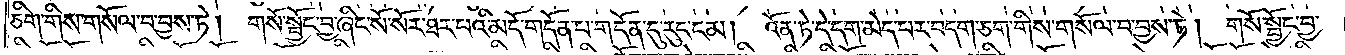ཅིག་གིས་གསོལ་བ་བྱས་ཏེ། གསོ་སྦྱོང་བྱ་ཞིང་སོ་སོར་ཐར་པའི་མདོ་གདོན་པ་གདོན་དུ་རུང་ངམ། འོན་ཏེ་དེ་དག་མེད་པར་བདག་ཅག་གིས་གསོལ་བ་བྱས་ཏེ། གསོ་སྦྱོང་བྱ་
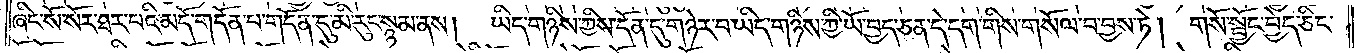ཞིང་སོ་སོར་ཐར་པའི་མདོ་གདོན་པ་གདོན་དུ་མི་རུང་སྙམ་ནས། ཡིད་གཉིས་ཀྱིས་དོན་དུ་གཉེར་བ་ཡིད་གཉིས་ཀྱི་ཡོ་བྱད་ཅན་དེ་དག་གིས་གསོལ་བ་བྱས་ཏེ། གསོ་སྦྱོང་བྱེད་ཅིང་
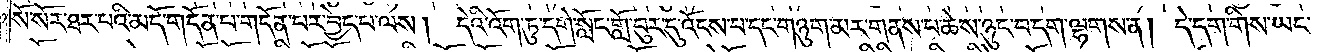སོ་སོར་ཐར་པའི་མདོ་གདོན་པ་གདོན་པར་བྱེད་པ་ལས། དེའི་འོག་ཏུ་དགེ་སློང་གློ་བུར་དུ་འོངས་པ་དང་གཉུག་མར་གནས་བ་ཆེས་ཉུང་བདག་ལྷགས་ན། དེ་དག་གིས་ཡང་
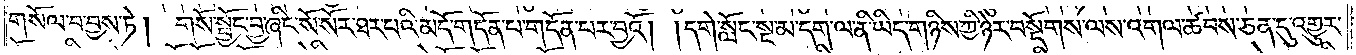གསོལ་བ་བྱས་ཏེ། གསོ་སྦྱོང་བྱ་ཞིང་སོ་སོར་ཐར་པའི་མདོ་གདོན་པ་གདོན་པར་བྱའོ། །དགེ་སློང་སྔ་མ་དག་ལ་ནི་ཡིད་གཉིས་ཀྱི་ཉེར་བསྡོགས་ལས་འགལ་ཚབས་ཅན་དུ་འགྱུར་
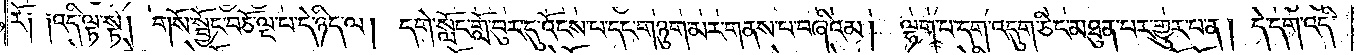རོ ༑ ༑འདི་ལྟ་སྟེ། གསོ་སྦྱོང་བཅོ་ལྔ་པ་དེ་ཉིད་ལ། དགེ་སློང་གློ་བུར་དུ་འོངས་པ་དང་གཉུག་མར་གནས་པ་བཞིའམ། ལྷག་པ་དག་འདུག་ཅིང་མཐུན་པར་གྱུར་པ་ན། དེ་དག་འདི་
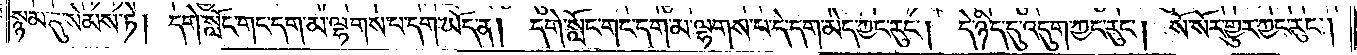སྙམ་དུ་སེམས་ཏེ། དགེ་སློང་གང་དག་མ་ལྷགས་པ་དག་མོད་ན། དགེ་སློང་གང་དག་མ་ལྷགས་པ་དེ་དག་མེད་ཀྱང་རུང༌། དེ་ཉིད་དུ་འདུག་ཀྱང་རུང༌། སོ་སོར་གྱུར་ཀྱང་རུང༌།
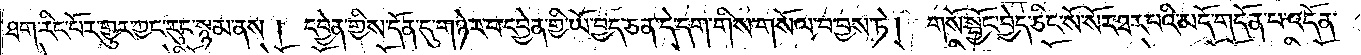ཐག་རིང་པོར་གྱུར་ཀྱང་རུང་སྙམ་ནས། དབྱེན་གྱིས་དོན་དུ་གཉེར་བ་དབྱེན་གྱི་ཡོ་བྱད་ཅན་དེ་དག་གིས་གསོལ་བ་བྱས་ཏེ། གསོ་སྦྱོང་བྱེད་ཅིང་སོ་སོར་ཐར་པའི་མདོ་གདོན་པ་འདོན་
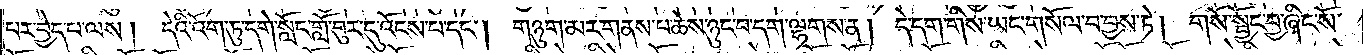པར་བྱེད་པ་ལས། དེའི་འོག་ཏུ་དགེ་སློང་གློ་བུར་དུ་འོངས་པ་དང༌། གཉུག་མར་གནས་པ་ཆེས་ཉུང་བ་དག་ལྷགས་ན། དེ་དག་གིས་ཡང་གསོལ་བ་བྱས་ཏེ། གསོ་སྦྱོང་བྱ་ཞིང་སོ་
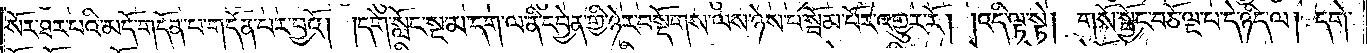སོར་ཐར་པའི་མདོ་གདོན་པ་གདོན་པར་བྱའོ། །དགེ་སློང་སྔ་མ་དག་ལ་ནི་དབྱེན་གྱི་ཉེར་བསྡོགས་ཡས་ཉེས་པ་སྤོམ་པོར་འགྱུར་རོ། །འདི་ལྟ་སྟེ། གསོ་སྦྱོང་བཅོ་ལྔ་པ་དེ་ཉིད་ལ། དགེ་
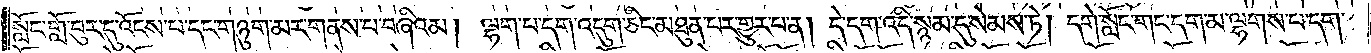སློང་གློ་བུར་དུ་འོངས་པ་དང་གཉུག་མར་གནས་པ་བཞིའམ། ལྷག་པ་དག་འདུག་ཅིང་མཐུན་པར་གྱུར་པ་ན། དེ་དག་འདི་སྙམ་དུ་སེམས་ཏེ། དགེ་སློང་གང་དག་མ་ལྷགས་པ་དག་
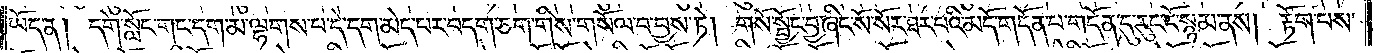ཡོད་ན། དགེ་སློང་གང་དག་མ་ལྷགས་པ་དེ་དག་མེད་པར་བདག་ཅག་གིས་གསོལ་བ་བྱས་ཏེ། གསོ་སྦྱོང་བྱ་ཞིང་སོ་སོར་ཐར་པའི་མདོ་གདོན་པ་གདོན་དུ་རུང་ངོ་སྙམ་ནས། རྟོག་པས་
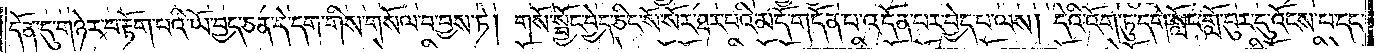དོན་དུ་གཉེར་བ་རྟོག་པའི་ཡོ་བྱད་ཅན་དེ་དག་གིས་གསོལ་བ་བྱས་ཏེ། གསོ་སྦྱོང་བྱེད་ཅིང་སོ་སོར་ཐར་པའི་མདོ་གདོན་པ་འདོན་པར་བྱེད་པ་ལས། དེའི་འོག་ཏུ་དགེ་སློང་གློ་བུར་དུ་འོངས་པ་དང་
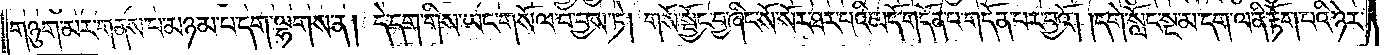གཉུག་མར་གནས་པ་མཉམ་པ་དག་ལྷགས་ན། དེ་དག་གིས་ཡང་གསོལ་བ་བྱས་ཏེ། གསོ་སྦྱོང་བྱ་ཞིང་སོ་སོར་ཐར་པའི་མདོ་གདོན་པ་གདོན་པར་བྱའོ། །དགེ་སློང་སྔ་མ་དག་ལ་ནི་རྟོག་བའི་ཉེར་
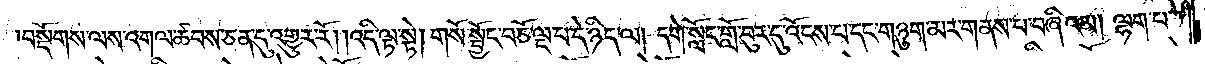བསྡོགས་ལས་འགལ་ཚབས་ཅན་དུ་འགྱུར་རོ། །འདི་ལྟ་སྟེ། གསོ་སྦྱོང་བཅོ་ལྔ་པ་དེ་ཉིད་ལ། དགེ་སློང་གློ་བུར་དུ་འོངས་པ་དང་གཉུག་མར་གནས་པ་བཞིའམ། ལྷག་པ་
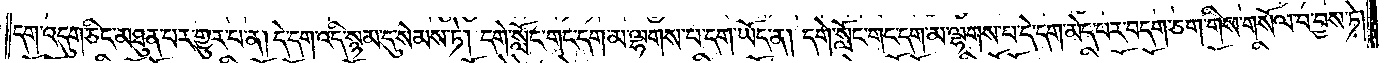དག་འདུག་ཅིང་མཐུན་པར་གྱུར་པ་ན། དེ་དག་འདི་སྙམ་དུ་སེམས་ཏེ། དགེ་སློང་གང་དག་མ་ལྷགས་པ་དག་ཡོད་ན། དགེ་སློང་གང་དག་མ་ལྷགས་པ་དེ་དག་མེད་པར་བདག་ཅག་གིས་གསོལ་བ་བྱས་ཏེ།
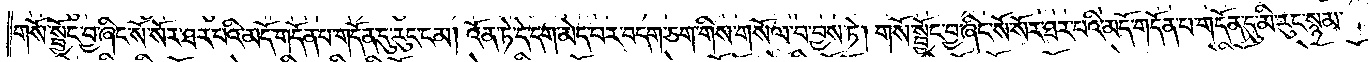གསོ་སྦྱོང་བྱ་ཞིང་སོ་སོར་ཐར་པའི་མདོ་གདོན་པ་གདོན་དུ་རུང་ངམ། འོན་ཏེ་དེ་དག་མེད་པར་བདག་ཅག་གིས་གསོལ་བ་བྱས་ཏེ། གསོ་སྦྱོང་བྱ་ཞིང་སོ་སོར་ཐར་པའི་མདོ་གདོན་པ་གདོན་དུ་མི་རུང་སྙམ་
